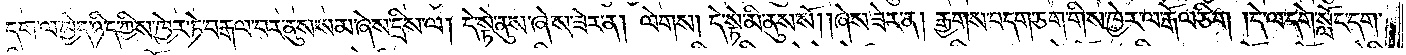དག་ལ་ཁྱེད་ཉིད་ཀྱིས་ཁྱེར་ཏེ་བརྒལ་བར་ནུས་སམ་ཞེས་དྲིས་ལ། དེ་སྟེ་ནུས་ཞེས་ཟེར་ན། ལེགས། དེ་སྟེ་མི་ནུས་སོ། །ཞེས་ཟེར་ན། རྒྱགས་བདག་ཅག་གིས་ཁྱེར་ལ་རྒོལ་ཅིག །དེ་ལ་དགེ་སློང་དག་
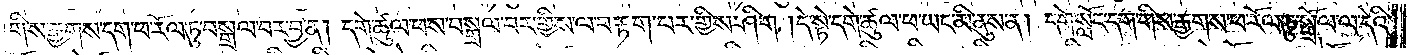གིས་རྒྱགས་དག་ཕ་རོལ་ཏུ་བསྒྲལ་བར་བྱ་ན། དགེ་ཚུལ་ཕས་བསྒྲལ་བར་གྱིས་ལ་བརྟག་པར་གྱིས་ཤིག །དེ་སྟེ་དགེ་ཚུལ་ཕ་ཡང་མི་ནུས་ན། དགེ་སློང་དག་གིས་རྒྱགས་ཕ་རོལ་ཏུ་སྒྲོལ་ལ་དེའི་
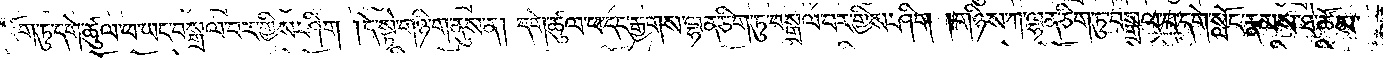འོག་ཏུ་དགེ་ཚུལ་ཕ་ཡང་བསྒྲལ་བར་གྱིས་ཤིག །དེ་སྟེ་གཉི་ག་ནུས་ན། དགེ་ཚུལ་ཕ་དང་རྒྱགས་ལྷན་ཅིག་ཏུ་བསྒྲལ་བར་གྱིས་ཤིག །གཉིས་ཀ་ལྷན་ཅིག་ཏུ་བསྒྲལ་བ་དགེ་སློང་རྣམས་ཐེ་ཚོམ་
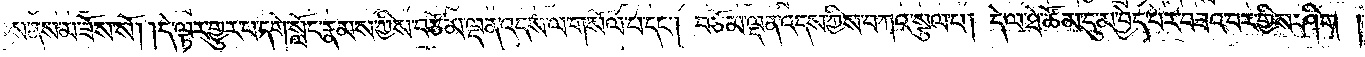སྐྱེས་ནས་མ་ཟོས་སོ། །དེ་ལྟར་གྱུར་པ་དགེ་སློང་རྣམས་ཀྱིས་བཅོམ་ལྡན་འདས་ལ་གསོལ་པ་དང༌། བཅོམ་ལྡན་འདས་ཀྱིས་བཀའ་སྩལ་པ། དེ་ལ་ཐེ་ཚོམ་དུ་མ་བྱེད་པར་བཟའ་བར་གྱིས་ཤིག།
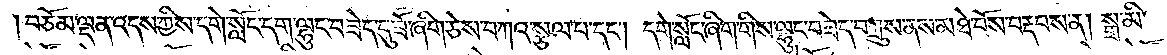བཅོམ་ལྡན་འདས་ཀྱིས་དགེ་སློང་དག་ལྷུང་བཟེད་དུ་ཟོ་ཞིག་ཅེས་བཀའ་སྩལ་པ་དང༌། དགེ་སློང་ཞིག་གིས་ལྷུང་བཟེད་བཀྲུས་ནས་མཐེ་བོས་བརྡབས་ན། སྒྲ་མི་
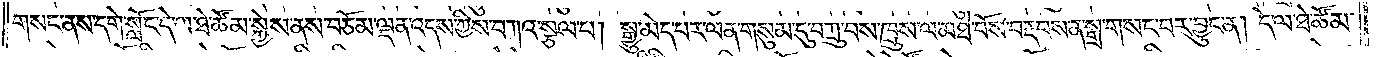གསང་ནས་དགེ་སློང་དེ་ལ་ཐེ་ཚོམ་སྐྱེས་ནས་བཅོམ་ལྡན་འདས་ཀྱིས་བཀའ་སྩལ་པ། སྒྱུ་མེད་པར་ལན་གསུམ་དུ་བཀྲུ་བས་ཁྲུས་ལ་མཐེ་བོས་བརྡབས་ན་སྒྲ་གསང་བར་བྱུང་ན། དེ་ལ་ཐེ་ཚོམ་
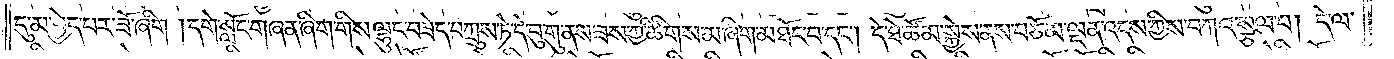དུ་མ་བྱེད་པར་ཟོ་ཞིག །དགེ་སློང་གཞན་ཞིག་གིས་ལྷུང་བཟེད་བཀྲུས་ཏེ་དེ་བུ་གུ་ནས་ཟས་ཀྱི་ཚིགས་མ་ཞིག་མཐོང་བ་དང༌། དེ་ཐེ་ཚོམ་སྐྱེས་ནས་བཅོམ་ལྡན་འདས་ཀྱིས་བཀའ་སྩལ་པ། དེ་ལ་
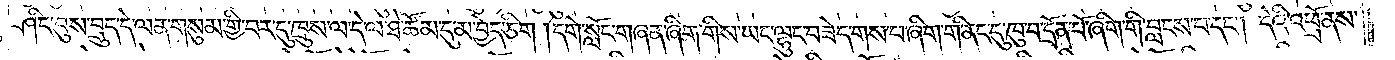ཤིང་བུས་བྲུད་དེ་ལན་གསུམ་གྱི་བར་དུ་ཁྲུས་ལ་དེ་ལ་ཐེ་ཚོམ་དུ་མ་བྱེད་ཅིག །དགེ་སློང་གཞན་ཞིག་གིས་ཡང་ལྷུང་བཟེད་གས་པ་ཞིག་གི་ནང་དུ་ཁུ་བ་དྲོན་པོ་ཞིག་གི་བླངས་པ་དང༌། དེའི་འཕྲོ་ནས་
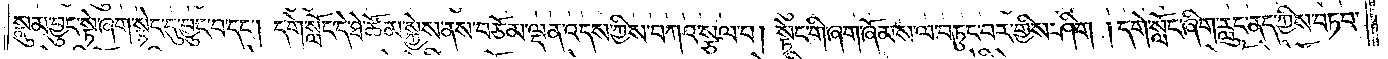སྣུམ་བྱུང་སྟེ་ཞག་སྟེང་དུ་བྱུང་བ་དང༌། དགེ་སློང་དེ་ཐེ་ཚོམ་སྐྱེས་ནས་བཅོམ་ལྡན་འདས་ཀྱིས་བཀའ་སྩལ་པ། སྟེང་གི་ཞག་ཞོམས་ལ་བཏུང་བར་གྱིས་ཤིག །དགེ་སློང་ཞིག་རླུང་ནད་ཀྱིས་བཏབ་
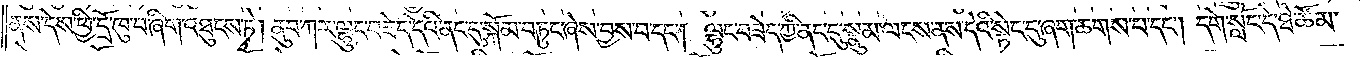ནས་དེས་ཕྱི་དྲོ་ཁུ་བ་ཞིག་འཐུངས་ཏེ། ནུབ་ཀར་ལྷུང་བཟེད་དེའི་ནང་དུ་སྐོམ་བཏུང་ཞེས་བྱས་བ་དང༌། ལྷུང་བཟེད་ཀྱི་ནང་དུ་སྣུམ་ལངས་ནས་དེའི་སྟེང་དུ་ཞག་ཆགས་པ་དང༌། དགེ་སློང་དེ་ཐེ་ཚོམ་
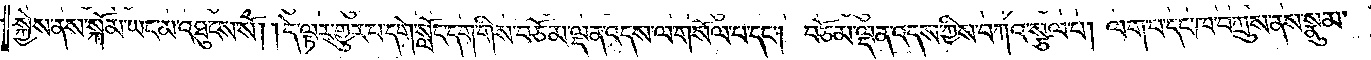སྐྱེས་ནས་སྐོམ་ཡང་མ་འཐུངས་སོ། །དེ་ལྟར་གྱུར་པ་དགེ་སློང་དག་གིས་བཅོམ་ལྡན་འདས་ལ་གསོལ་བ་དང༌། བཅོམ་ལྡན་འདས་ཀྱིས་བཀའ་སྩལ་པ། ལག་པ་དང་ཁ་བཀྲུས་ནས་སྣུམ་
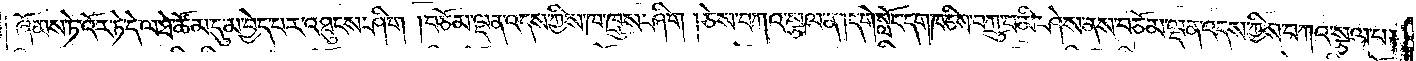ཞོམས་ཏེ་འོར་ཏེ་དེ་ལ་ཐེ་ཚོམ་དུ་མ་བྱེད་པར་འཐུངས་ཤིག །བཅོམ་ལྡན་འདས་ཀྱིས་ཁ་ཁྲུས་ཤིག །ཅེས་བཀའ་སྩལ་ན། དགེ་སློང་དག་ཁ་ཅིག་བཀྲུ་བ་མི་ཤེས་ནས་བཅོམ་ལྡན་འདས་ཀྱིས་བཀའ་སྩལ་པ།
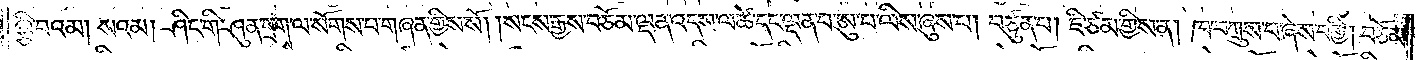ལྕི་བའམ། སའམ། ཤིང་གི་ཤུན་ཕྲགས་ལ་སོགས་པ་གཞན་གྱིས་སོ། །སངས་རྒྱས་བཅོམ་ལྡན་འདས་ལ་ཚེ་དང་ལྡན་པ་ཨུ་པ་ལིས་ཞུས་པ། བཙུན་པ། ཇི་ཙམ་གྱིས་ན། ཁ་བཀྲུས་པ་ཞེས་བགྱི། བཅོམ་
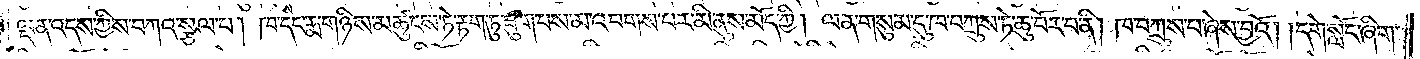ལྡན་འདས་ཀྱིས་བཀའ་སྩལ་པ། ཁ་དང་རྨ་གཉིས་མཚུངས་ཏེ་རྟག་ཏུ་ཟུག་པས་མ་འབགས་པར་མི་ནུས་མོད་ཀྱི། ལན་གསུམ་དུ་ཁ་བཀྲུས་ཏེ་ཆུ་བོར་བ་ནི། ཁ་བཀྲུས་པ་ཞེས་བྱའོ། །དགེ་སློང་ཞིག་
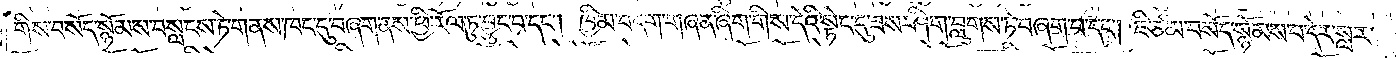གིས་བསོད་སྙོམས་བསླངས་ཏེ་གནས་ཁང་དུ་བཞག་ནས་ཕྱི་རོལ་ཏུ་བྱུང་བ་དང༌། ཁྱིམ་བདག་གཞན་ཞིག་གིས་དེའི་སྟེང་དུ་ཟས་ཤིག་བླུགས་ཏེ་བཞག་པ་དང༌། ཇི་ཙམ་བསོད་སྙོམས་པ་དེར་སླར་
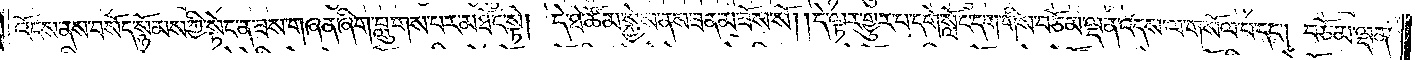འོངས་ནས་བསོད་སྙོམས་ཀྱི་སྟེང་ན་ཟས་གཞན་ཞིག་བླུགས་པར་མཐོང་སྟེ། དེ་ཐེ་ཚོམ་སྐྱེས་ནས་ཟན་མ་ཟོས་སོ། །དེ་ལྟར་གྱུར་པ་དགེ་སློང་དག་གིས་བཅོམ་ལྡན་འདས་ལ་གསོལ་བ་དང༌། བཅོམ་ལྡན་
